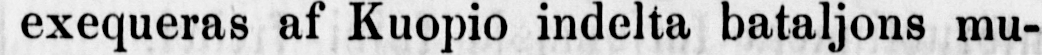exequeras af Kuopio indelta, bataljons mu-
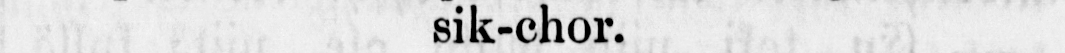sik-chor.
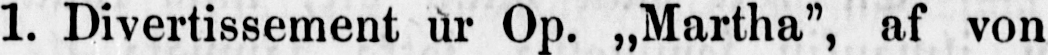1. Divertissement ur Op. „Martha", af von
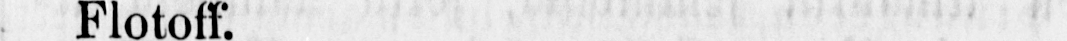Flotoff.
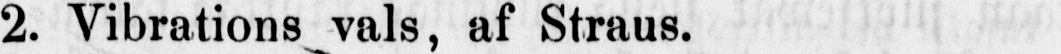2. Vibrations vals, af Straus.
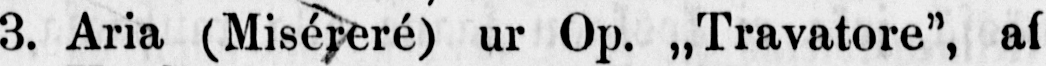3. Aria (Miséreré) ur 0p. „Travatore", af
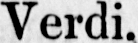Verdi.
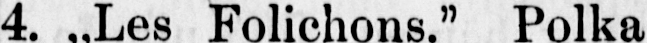4. „Les Folichons." Polka comique, af E.
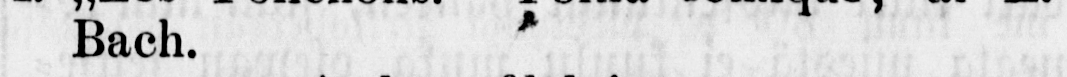Bach.
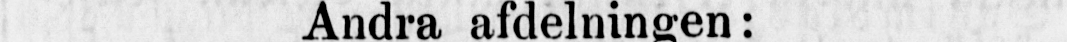Andra afdelningen:
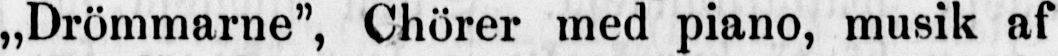„Drömmarne", Chörer med piano, musik af
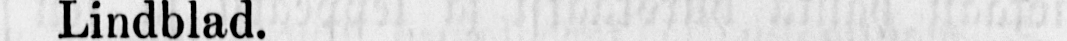Lindblad.
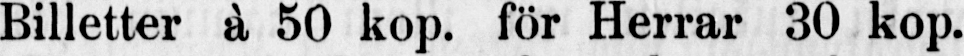Billetter à, 50 Kop. för Herrar 30 kop.
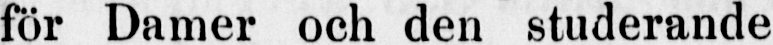för Damer och den studerande ungdomen
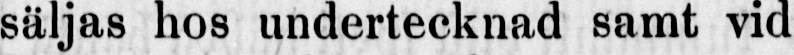säljas hos undertecknad samt vid ingången.
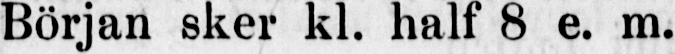Början sker kl. half 8 e. m.
